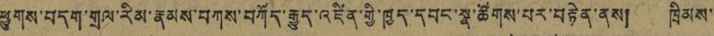ཕྱུགས་བདག་གྲལ་རིམ་རྣམས་བཀས་བཀོད་རྒྱུད་འཛིན་གྱི་ཁྱད་དབང་སྣ་ཚོགས་པར་བརྟེན་ནས། ཁྲིམས་
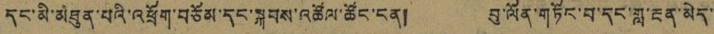དང་མི་མཐུན་པའི་འཕྲོག་བཅོམ་དང་སྐབས་འཚོལ་ཚོང་ངན། བུ་ལོན་གཏོང་བ་དང་གླ་རྔན་མེད་
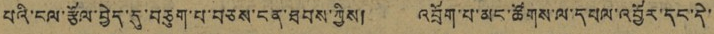པའི་ངལ་རྩོལ་བྱེད་དུ་བཅུག་པ་བཅས་ངན་ཐབས་ཀྱིས། འབྲོག་པ་མང་ཚོགས་ལ་དཔལ་འབྱོར་དང་དེ་
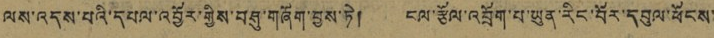ལས་འདས་པའི་དཔལ་འབྱོར་གྱིས་བཤུ་གཞོག་བྱས་ཏེ། ངལ་རྩོལ་འབྲོག་པ་ཡུན་རིང་བོར་དབུལ་ཕོངས་
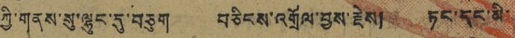ཀྱི་གནས་སུ་ལྷུང་དུ་བཅུག བཅིངས་འགྲོལ་བྱས་རྗེས། ཏང་དང་མི་
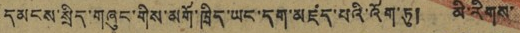དམངས་སྲིད་གཞུང་གིས་མགོ་ཁྲིད་ཡང་དག་མཛད་པའི་འོག་ཏུ། མི་རིགས་
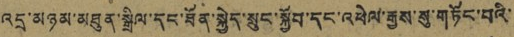འདྲ་མཉམ་མཐུན་སྒྲིལ་དང་ཐོན་སྐྱེད་སྲུང་སྐྱོབ་དང་འཕེལ་རྒྱས་སུ་གཏོང་བའི་
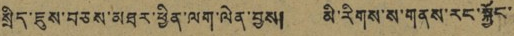སྲིད་ཇུས་བཅས་མཐར་ཕྱིན་ལག་ལེན་བྱས། མི་རིགས་ས་གནས་རང་སྐྱོང་
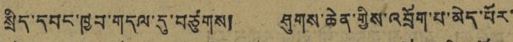སྲིད་དབང་ཁྱབ་གདལ་དུ་བཙུགས། ཤུགས་ཆེན་གྱིས་འབྲོག་པ་མེད་པོར་
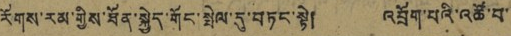རོགས་རམ་གྱིས་ཐོན་སྐྱེད་གོང་སྤེལ་དུ་བཏང་སྟེ། འབྲོག་པའི་འཚོ་བ་
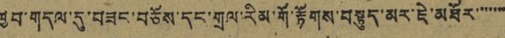ཁྱབ་གདལ་དུ་བཟང་བཅོས་དང་གྲལ་རིམ་གོ་རྟོགས་བསྟུད་མར་ཇེ་མཐོར་་་་་་་
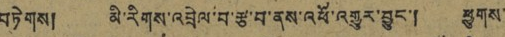བཏེགས། མི་རིགས་འབྲེལ་བ་རྩ་བ་ནས་འཕོ་འགྱུར་བྱུང་། ཕྱུགས་
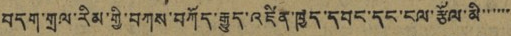བདག་གྲལ་རིམ་གྱི་བཀས་བཀོད་རྒྱུད་འཛིན་ཁྱད་དབང་དང་ངལ་རྩོལ་མི་་་་་་
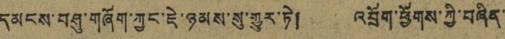དམངས་བཤུ་གཞོག་ཀྱང་ཇེ་ཉམས་སུ་གྱུར་ཏེ། འབྲོག་ཕྱོགས་ཀྱི་བཞིན་
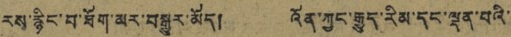རས་རྙིང་བ་ཐོག་མར་བསྒྱུར་མོད། འོན་ཀྱང་རྒྱུད་རིམ་དང་ལྡན་པའི་
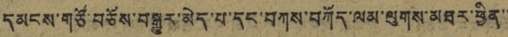དམངས་གཙོ་བཅོས་བསྒྱུར་མེད་པ་དང་བཀས་བཀོད་ལམ་ལུགས་མཐར་ཕྱིན་་
